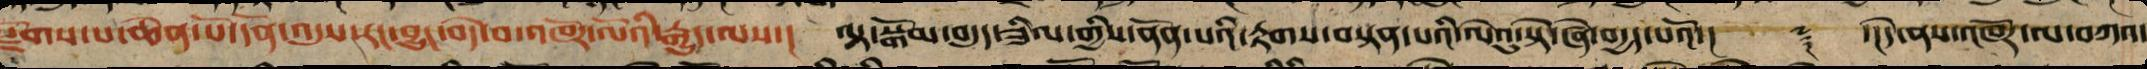སྫོགས་པ་ཆེན་པོ་དོན་འདུས་རང་བྱུང་བདེ་བའི་འཁོར་ལོའི་རྒྱུད་ལས་། ལྟ་སྒོམ་གྱི་བདུད་ཟིལ་གྱིས་ནོན་པའི་རྟགས་བསྟན་པའི་ལེའུ་སྟེ་ཞེ་བདྱད་པའོ་།། ༈ ་།དེ་ནས་འཁོར་ལ་བཀའ་
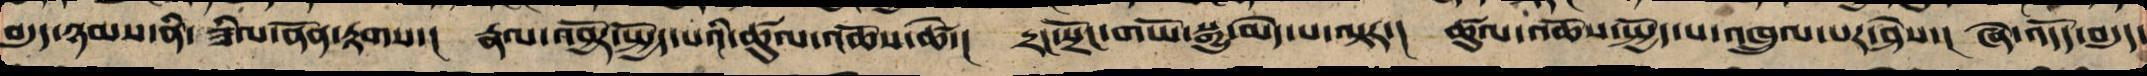བདུད་ཉམས་ནི་ཟིལ་ནོན་རྟགས་། རྣལ་འབྱོར་སྤྱོད་པའི་ཚུལ་འཆོས་ཚེ་། དྲང་སྲོང་གཡོ་སྒྱུ་མེད་པ་ལྟར་། ཚུལ་འཆོས་སྤྱོད་པ་འཁྲུལ་བར་ཤེས་། ཞེ་འདོད་བདུད་
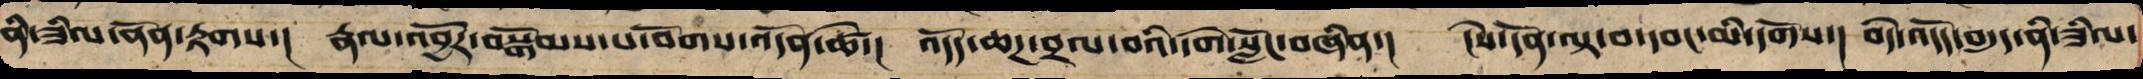ནི་ཟིལ་ནོན་རྟགས་། རྣལ་འབྱོར་བསྒོམ་པ་བོགས་འདོན་ཚེ་། འདོད་ཆཌ་བྲལ་བའི་དགེ་སློང་བཞིན་། ངེས་དོན་བལྟ་བར་དབང་མི་དགོས་། བདེ་འདོད་བདུད་ནི་ཟིལ་
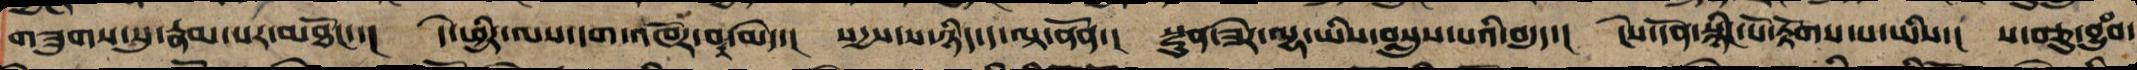གཟུགས་སྐུར་རྣམ་པར་མཐོང་་། དེ་ཕྱིར་ལས་དག་འཁོར་བ་མེད་། སདྱས་ས་ཉིད་ད་ལྟ་ནོན་། སྫུན་ཟེར་ལྷ་ཡིས་བསླུས་པའི་བདུད་། ངེས་དོན་སྙིང་པོ་རྟོགས་པ་ཡིས་། ས་བཅུའི་བྱུཾབ་
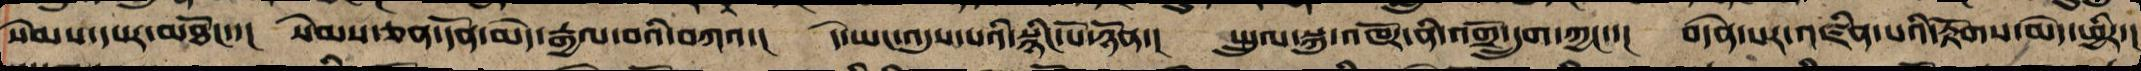སེམས་དཔར་མཐོང་་། སེམས་ཅན་དོན་བྱེད་རྒྱལ་བའི་བཀའ་། དེ་ཡང་འདུས་པའི་སྙིང་པོ་ཉོན་། སྤྲུལ་སྐུ་འཁོར་ནི་འགྲོ་དྲུག་ཀྱང་་། བདེན་པར་འཛིན་པའི་རྟོགས་མེད་ཕྱིར་།
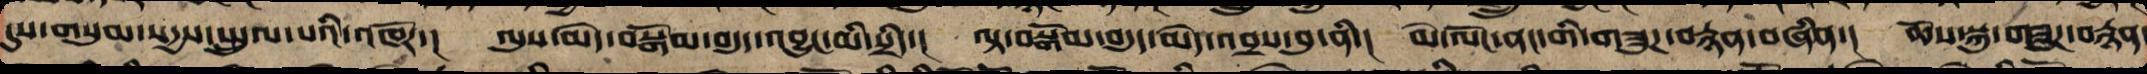དུས་གསུམ་སདྱས་སྤྲུལ་པའི་འཁོར་། ལུས་མེད་བསྒོམ་བདུད་འབྱུང་མི་སྲིད་། ལྟ་བསྒོམ་བདུད་མེད་འབྲས་བུ་ནི་། མེ་ལོང་ནང་གི་གཟུཌ་བརྙན་བཞིན་། ཆོས་སྐུ་གཟུཌ་བརྙན
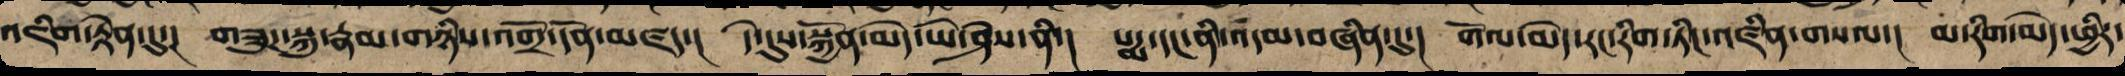འཇིག་རྟེན་དུ་་། གཟུཌ་སྐུ་རྣམ་གཉིས་འགྲོ་དོན་མཛད་། དེ་དུས་སྐྱོན་མེད་ཡེ་ཤེས་ནི་། པདྨ་དང་ནི་འདམ་བཞིན་དུ་། གོལ་མེད་རང་རིག་ཏིང་འཛིན་གསལ་། མ་རིག་མེད་ཕྱིར་
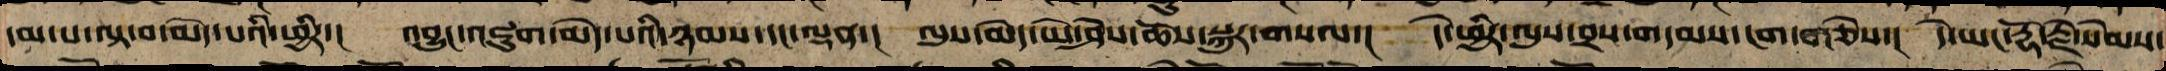དམ་པར་བལྟ་བ་མེད་པའི་ཕྱིར་། འབྱུང་འཇུག་མེད་པའི་ཉམས་དང་ལྡན་། ལུས་མེད་ཡེ་ཤེས་ཆོས་སྐུར་གསལ་། དེ་ཕྱིར་ལུས་བྲ᫥་གདམས་ངག་གཅེས་། དེ་ཡང་རྡོ་རྗེ་སེམས་
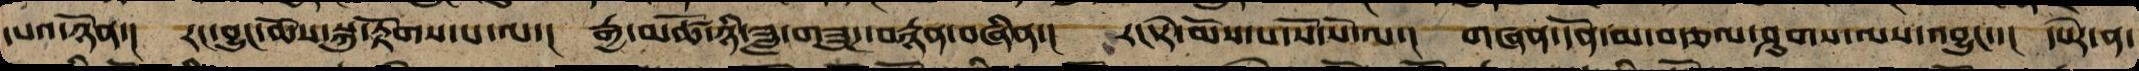དཔའ་ཉོན་། རང་བྱུང་ཆོས་སྐུ་རྟོགས་པ་ལ་། རྒྱ་མཚོ་ཉི་ཟླ་གཟུཌ་བརྙན་བཞིན་། རང་རེ་མོས་པ་སོ་སོ་ལ་། གཞན་དོན་མ་བརྩལ་ཤུགས་ལས་འབྱུང་་། དཔེར་ན་
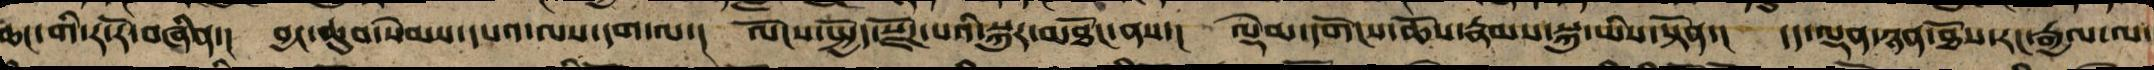ཆང་གིས་ར་རོ་བཞིན་། བྱང་ཆུབ་སེམས་དཔའ་ལས་དག་ལ་། ལོངས་སྤྱོད་སྫོཌ་པའི་སྐུར་མཐོང་ནས་། ལྡེམ་དགོངས་ཆོས་རྣམས་སྐུ་ཡིས་སྟོན་། དད་ལྡན་ཉན་ཐོས་རང་རྒྱལ་ལ་
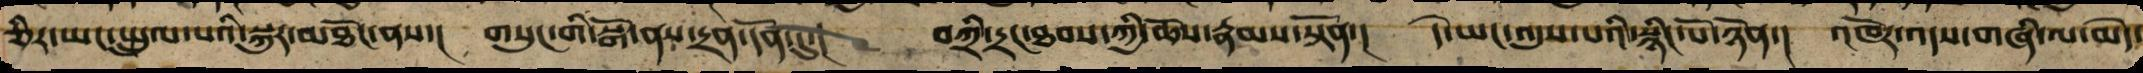ཅིར་ཡང་སྤྲུལ་པའི་སྐུར་མཐོང་ནས་། གསུང་གི་སྒོ་ནས་དྲན་དོན་དུ་། བཀྲི་དྲང་ཐབས་ཀྱིས་ཆོས་རྣམས་སྟོན་། དེ་ཡང་འདུས་པའི་སྙིང་པོ་ཉོན་། འཁོར་འདས་གཞི་ལ་མེད་
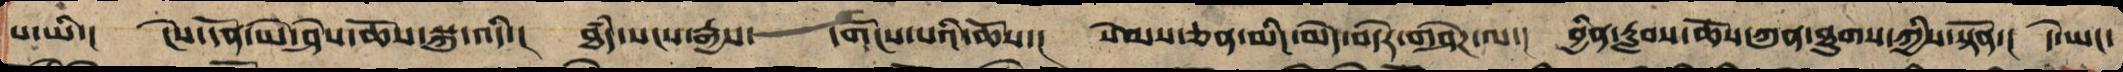པ་ཡི་། ངེས་དོན་ཡེ་ཤེས་ཆོས་སྐུ་འདི་། ཐཾད་སངས་རྒྱས་དགོངས་པའི་ཆོས་། སེམས་ཅན་མིང་མེད་བདེ་གཤེཌ་ལ་། བྱིན་རླབས་ཆོས་ཀུན་ཐུགས་ཀྱིས་སྟོན་། དེ་ཡང་
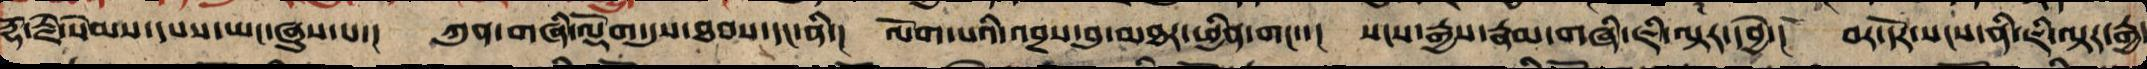རྡོ་རྗེ་སེམས་དཔས་ཡང་ཞུས་པ་། ཀུན་གཞི་ལྡོག་དུས་ཐབས་དང་ནི་། ལོག་པའི་འབྲས་བུ་མཐར་ཕྱིན་གང་་། སངས་རྒྱས་རྣམ་བཞི་ཇི་ལྟར་དབྱེ་། བར་དོར་སངས་ནི་ཇི་ལྟར་རྒྱ་
